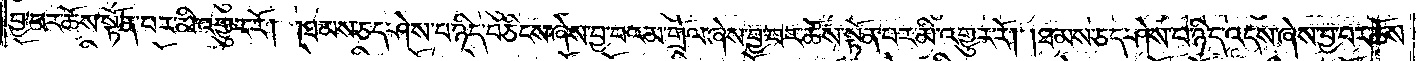བྱ་བར་ཆོས་སྟོན་པར་མི་འགྱུར་རོ། །ཐམས་ཅད་ཤེས་པ་ཉིད་བཅིངས་ཞེས་བྱ་བའམ་གྲོལ་ཞེས་བྱ་བར་ཆོས་སྟོན་པར་མི་འགྱུར་རོ། །ཐམས་ཅད་ཤེས་པ་ཉིད་འདས་ཞེས་བྱ་བར་ཆོས་
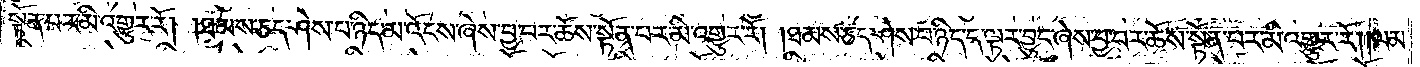སྟོན་པར་མི་འགྱུར་རོ། །ཐམས་ཅད་ཤེས་པ་ཉིད་མ་འོངས་ཞེས་བྱ་བར་ཆོས་སྟོན་པར་མི་འགྱུར་རོ། །ཐམས་ཅད་ཤེས་པ་ཉིད་ད་ལྟར་བྱུང་ཞེས་བྱ་བར་ཆོས་སྟོན་པར་མི་འགྱུར་རོ། །ལམ་
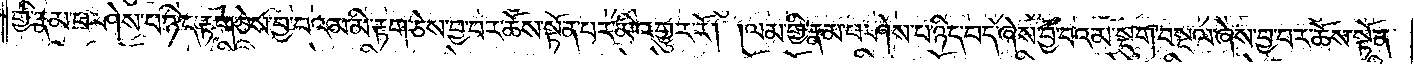གྱི་རྣམ་པ་ཤེས་པ་ཉིད་རྟག་ཅེས་བྱ་བའམ་མི་རྟག་ཅེས་བྱ་བར་ཆོས་སྟོན་པར་མི་འགྱུར་རོ། །ལམ་གྱི་རྣམ་པ་ཤེས་པ་ཉིད་བདེ་ཞེས་བྱ་བའམ་སྡུག་བསྔལ་ཞེས་བྱ་བར་ཆོས་སྟོན་
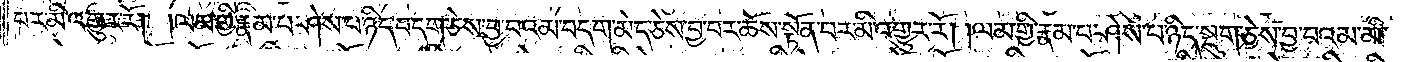པར་མི་འགྱུར་རོ། །ལམ་གྱི་རྣམ་པ་ཤེས་པ་ཉིད་བདག་ཅེས་བྱ་བའམ་བདག་མེད་ཅེས་བྱ་བར་ཆོས་སྟོན་པར་མི་འགྱུར་རོ། །ལམ་གྱི་རྣམ་པ་ཤེས་པ་ཉིད་སྡུག་ཅེས་བྱ་བའམ་མི་
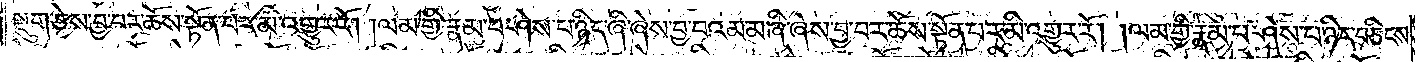སྡུག་ཅེས་བྱ་བར་ཆོས་སྟོན་པར་མི་འགྱུར་རོ། །ལམ་གྱི་རྣམ་པ་ཤེས་པ་ཉིད་ཞི་ཞེས་བྱ་བའམ་མ་ཞི་ཞེས་བྱ་བར་ཆོས་སྟོན་པར་མི་འགྱུར་རོ། །ལམ་གྱི་རྣམ་པ་ཤེས་པ་ཉིད་བཅིངས་
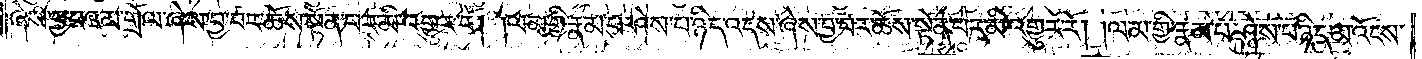ཞེས་བྱ་བའམ་གྲོལ་ཞེས་བྱ་བར་ཆོས་སྟོན་པར་མི་འགྱུར་རོ། །ལམ་གྱི་རྣམ་པ་ཤེས་པ་ཉིད་འདས་ཞེས་བྱ་བར་ཆོས་སྟོན་པར་མི་འགྱུར་རོ། །ལམ་གྱི་རྣམ་པ་ཤེས་པ་ཉིད་མ་འོངས་
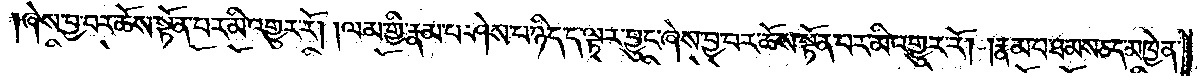ཞེས་བྱ་བར་ཆོས་སྟོན་པར་མི་འགྱུར་རོ། །ལམ་གྱི་རྣམ་པ་ཤེས་པ་ཉིད་ད་ལྟར་བྱུང་ཞེས་བྱ་བར་ཆོས་སྟོན་པར་མི་འགྱུར་རོ། །རྣམ་པ་ཐམས་ཅད་མཁྱེན་
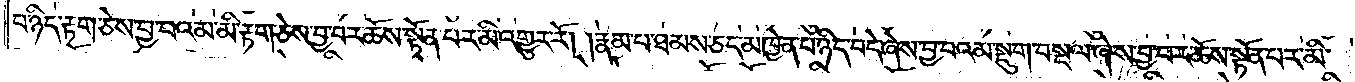པ་ཉིད་རྟག་ཅེས་བྱ་བའམ་མི་རྟག་ཅེས་བྱ་བར་ཆོས་སྟོན་པར་མི་འགྱུར་རོ། །རྣམ་པ་ཐམས་ཅད་མཁྱེན་པ་ཉིད་བདེ་ཞེས་བྱ་བའམ་སྡུག་བསྔལ་ཞེས་བྱ་བར་ཆོས་སྟོན་པར་མི་
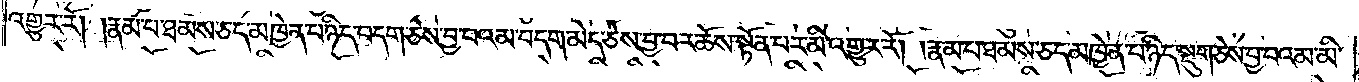འགྱུར་རོ། །རྣམ་པ་ཐམས་ཅད་མཁྱེན་པ་ཉིད་བདག་ཅེས་བྱ་བའམ་བདག་མེད་ཅེས་བྱ་བར་ཆོས་སྟོན་པར་མི་འགྱུར་རོ། །རྣམ་པ་ཐམས་ཅད་མཁྱེན་པ་ཉིད་སྡུག་ཅེས་བྱ་བའམ་མི་
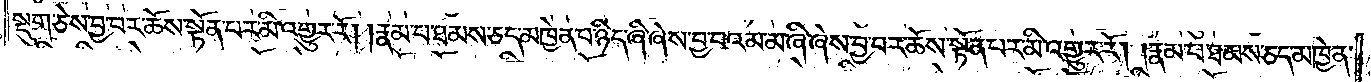སྡུག་ཅེས་བྱ་བར་ཆོས་སྟོན་པར་མི་འགྱུར་རོ། །རྣམ་པ་ཐམས་ཅད་མཁྱེན་པ་ཉིད་ཞི་ཞེས་བྱ་བའམ་མ་ཞི་ཞེས་བྱ་བར་ཆོས་སྟོན་པར་མི་འགྱུར་རོ། །རྣམ་པ་ཐམས་ཅད་མཁྱེན་
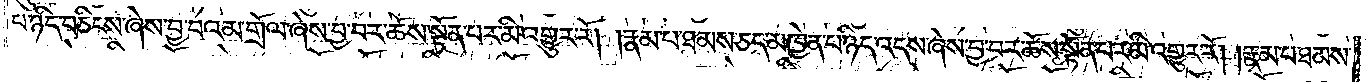པ་ཉིད་བཅིངས་ཞེས་བྱ་བའམ་གྲོལ་ཞེས་བྱ་བར་ཆོས་སྟོན་པར་མི་འགྱུར་རོ། །རྣམ་པ་ཐམས་ཅད་མཁྱེན་པ་ཉིད་འདས་ཞེས་བྱ་བར་ཆོས་སྟོན་པར་མི་འགྱུར་རོ། །རྣམ་པ་ཐམས་
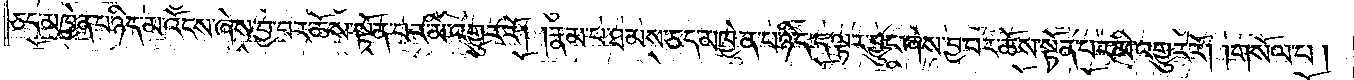ཅད་མཁྱེན་པ་ཉིད་མ་འོངས་ཞེས་བྱ་བར་ཆོས་སྟོན་པར་མི་འགྱུར་རོ། །རྣམ་པ་ཐམས་ཅད་མཁྱེན་པ་ཉིད་ད་ལྟར་བྱུང་ཞེས་བྱ་བར་ཆོས་སྟོན་པར་མི་འགྱུར་རོ། །གསོལ་པ།
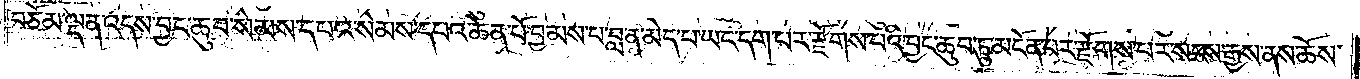བཅོམ་ལྡན་འདས་བྱང་ཆུབ་སེམས་དཔའ་སེམས་དཔའ་ཆེན་པོ་བྱམས་པ་བླ་ན་མེད་པ་ཡང་དག་པར་རྫོགས་པའི་བྱང་ཆུབ་ཏུ་མངོན་པར་རྫོགས་པར་སངས་རྒྱས་ནས་ཆོས་
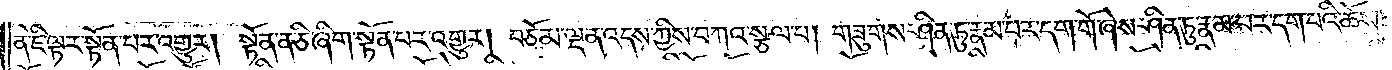ནི་ཇི་ལྟར་སྟོན་པར་འགྱུར། སྟོན་ན་ཅི་ཞིག་སྟོན་པར་འགྱུར། བཅོམ་ལྡན་འདས་ཀྱིས་བཀའ་སྩལ་པ། གཟུགས་ཤིན་ཏུ་རྣམ་པར་དག་གོ་ཞེས་ཤིན་ཏུ་རྣམ་པར་དག་པའི་ཆོས་
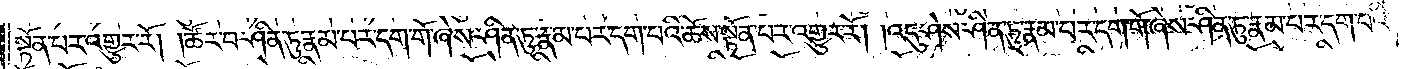སྟོན་པར་འགྱུར་རོ། །ཚོར་བ་ཤིན་ཏུ་རྣམ་པར་དག་གོ་ཞེས་ཤིན་ཏུ་རྣམ་པར་དག་པའི་ཆོས་སྟོན་པར་འགྱུར་རོ། །འདུ་ཤེས་ཤིན་ཏུ་རྣམ་པར་དག་གོ་ཞེས་ཤིན་ཏུ་རྣམ་པར་དག་པའི་
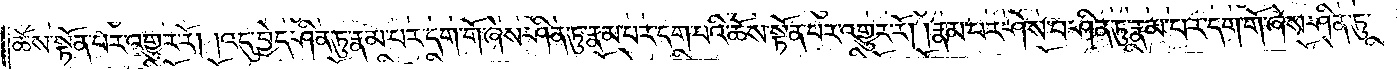ཆོས་སྟོན་པར་འགྱུར་རོ། །འདུ་བྱེད་ཤིན་ཏུ་རྣམ་པར་དག་གོ་ཞེས་ཤིན་ཏུ་རྣམ་པར་དག་པའི་ཆོས་སྟོན་པར་འགྱུར་རོ། །རྣམ་པར་ཤེས་པ་ཤིན་ཏུ་རྣམ་པར་དག་ད་གོ་ཞེས་ཤིན་ཏུ་
